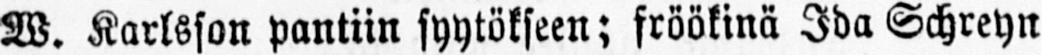W. Karlsson pantiin syytökseen; fröökinä Ida Schreyn
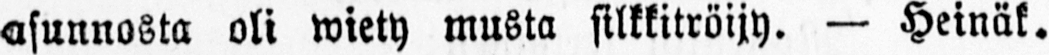asunnosta oli wiety musta silkkitröijy. — Heinäk.
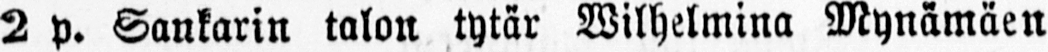2 p. Sankarin talon tytär Wilhelmina Mynämäen
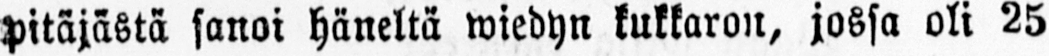pitäjästä sanoi häneltä wiedyn kukkaron, jossa oli 25
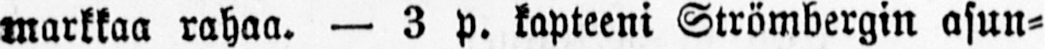markkaa rahaa. — 3 p. kapteeni Strömbergin asun-
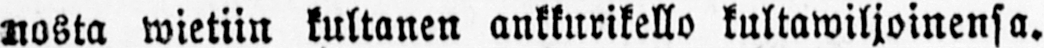nosta wietiin kultanen ankkurikello kultawiljoinensa.
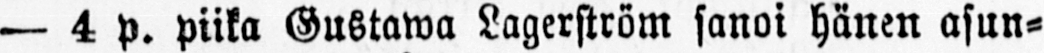— 4 p. piika Gustawa Lagerström sanoi hänen asun-
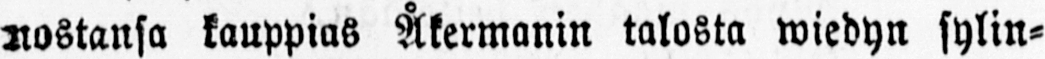nostansa kauppias Åkermanin talosta wiedyn sylin-
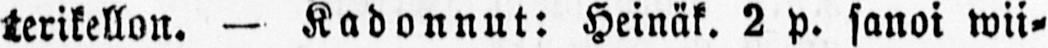terikellon. — Kadonnut: Heinäk. 2 p. sanoi wii-
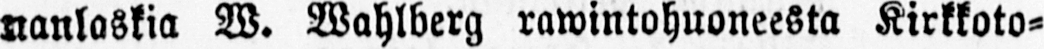nanlaskia W. Wahlberg rawintohuoneesta Kirkkoto-
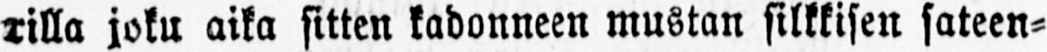rilla joku aika sitten kadonneen mustan silkkisen sateen-
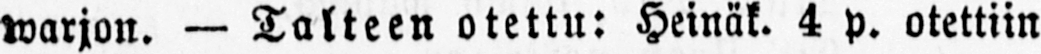warjon. — Talteen otettu: Heinäk. 4 p. otettiin
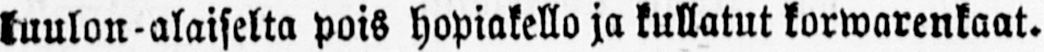luulon-alaiselta pois hopiakello ja kullatut korwarenkaat.
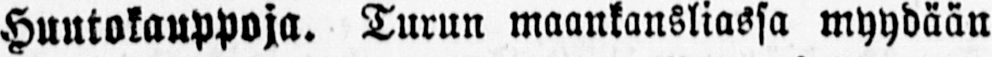Huutokauppoja. Turun maankansliassa myydään
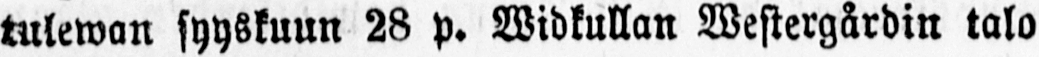tulewan syyskuun 28 p. Widkullan Westergårdin talo
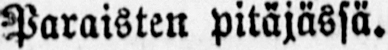Paraisten pitäjässä.
